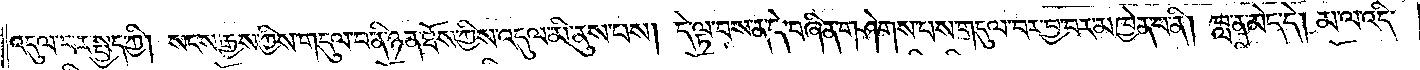འདུལ་བར་སྤྱད་ཀྱི། སངས་རྒྱས་ཀྱིས་གདུལ་བ་ནི་ཉན་ཐོས་ཀྱིས་འདུལ་མི་ནུས་པས། དེ་ལྟ་བས་ན་དེ་བཞིན་གཤེགས་པས་གདུལ་བར་བྱ་བར་མཁྱེན་པ་ནི། བླ་ན་མེད་དེ། མ་ལ་འདི་
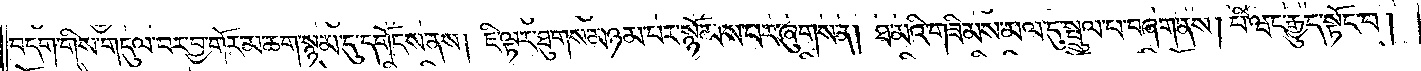བདག་གིས་གདུལ་བར་བྱ་གོར་མ་ཆག་སྙམ་དུ་དགོངས་ནས། ཇི་ལྟར་ཐུགས་མཉམ་པར་སྙོམས་པར་ཞུགས་ན། ཐ་མའི་གཟིམས་མལ་དུ་སྤྲུལ་པ་བཞག་ནས། པི་ཝང་རྒྱུད་སྟོང་པ།
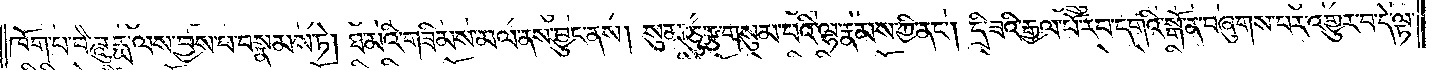ཁོག་པ་བཻ་ཌཱུརྻ་ལས་བྱས་པ་བསྣམས་ཏེ། ཐ་མའི་གཟིམས་མལ་ནས་བྱུང་ནས། སུམ་ཅུ་རྩ་གསུམ་པའི་ལྷ་རྣམས་ཀྱི་ནང༌། དྲི་ཟའི་རྒྱལ་པོ་རབ་དགའི་སྒོ་ན་བཞུགས་པར་འགྱུར་བ་དེ་ལྟ་
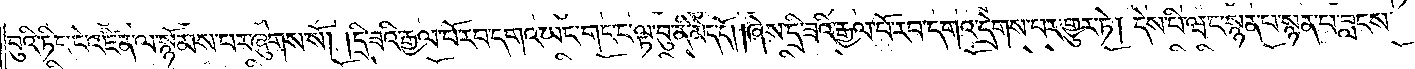བུའི་ཏིང་ངེ་འཛིན་ལ་སྙོམས་པར་ཞུགས་སོ། །དྲི་ཟའི་རྒྱལ་པོ་རབ་དགའ་ཡང་གང་ང་ལྟ་བུ་ནི་མེད་དོ། །ཞེས་དྲི་ཟའི་རྒྱལ་པོ་རབ་དགའ་དྲེགས་པར་གྱུར་ཏེ། དེས་པི་ཝང་སྙན་པ་སྙན་པ་བླངས་
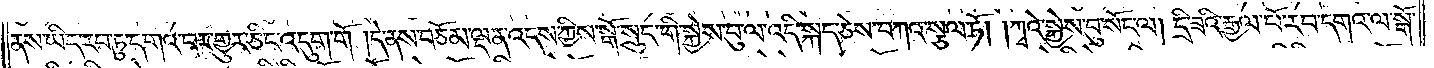ནས་ཡིད་རབ་ཏུ་དགའ་བར་གྱུར་ཅིང་འདུག་གོ །དེ་ནས་བཅོམ་ལྡན་འདས་ཀྱིས་སྒོ་སྲུང་གི་སྐྱེས་བུ་ལ་འདི་སྐད་ཅེས་བཀའ་སྩལ་ཏོ། །ཀྭའེ་སྐྱེས་བུ་སོང་ལ། དྲི་ཟའི་རྒྱལ་པོ་རབ་དགའ་ལ་སྒོ་
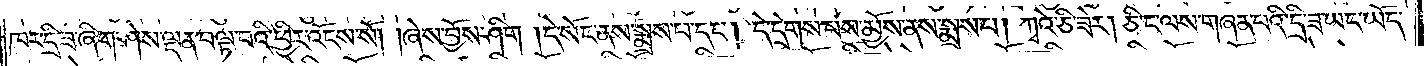ཁར་དྲི་ཟ་ཞིག་ཤེས་ལྡན་བལྟ་བའི་ཕྱིར་འོངས་སོ། །ཞེས་བྱོས་ཤིག །དེ་སོང་ནས་སྨྲས་པ་དང༌། དེ་དྲེགས་པས་མྱོས་ནས་སྨྲས་པ། ཀྭའེ་ཅི་ཟེར། ཅི་ང་ལས་གཞན་པའི་དྲི་ཟ་ཡང་ཡོད་
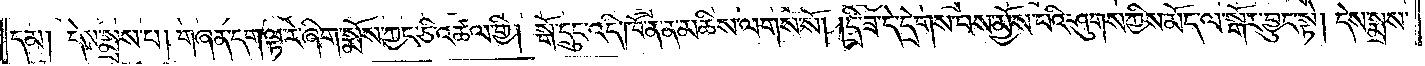དམ། དེས་སྨྲས་པ། གཞན་དག་ལྟ་རེ་ཞིག་སྨོས་ཀྱང་ཅི་འཚལ་གྱི། སྒོ་དྲུང་འདི་ཁོ་ན་ན་མཆིས་ལགས་སོ། །དྲི་ཟ་དེ་དྲེགས་པས་མྱོས་པའི་ཤུགས་ཀྱིས་མོད་ལ་སྒོར་བྱུང་སྟེ། དེས་སྨྲས་
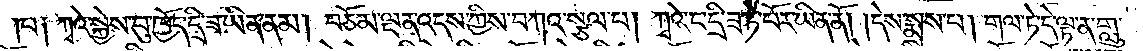པ༑ ཀྭའེ་སྐྱེས་བུ་ཁྱོད་དྲི་ཟ་ཡིན་ནམ། བཅོམ་ལྡན་འདས་ཀྱིས་བཀའ་སྩལ་པ། ཀྭའེ་ང་དྲི་ཟ་ཏེ་པོར་ཡིན་ནོ། །དེས་སྨྲས་པ། གལ་ཏེ་དེ་ལྟ་ན་གླུ་
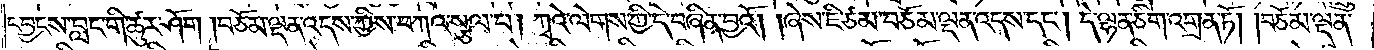དབྱངས་བླང་གི་ཚུར་ཤོག །བཅོམ་ལྡན་འདས་ཀྱིས་བཀའ་སྩལ་པ། ཀྭའེ་ལེགས་ཀྱི་དེ་བཞིན་བྱའོ། །ཞེས་ཇི་ཙམ་བཅོམ་ལྡན་འདས་དང༌། དེ་ལྷན་ཅིག་འགྲན་ཏོ། །བཅོམ་ལྡན་
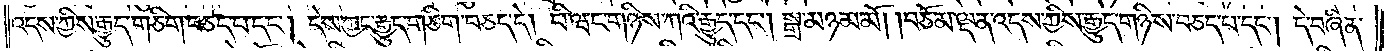འདས་ཀྱིས་རྒྱུད་གཅིག་བཅད་པ་དང༌། དེས་ཀྱང་རྒྱུད་གཅིག་བཅད་དེ། པི་ཝང་གཉིས་ཀའི་རྒྱུད་དང༌། སྒྲ་མཉམ་མོ། །བཅོམ་ལྡན་འདས་ཀྱིས་རྒྱུད་གཉིས་བཅད་པ་དང༌། དེ་བཞིན་
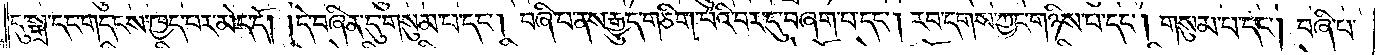དུ་སྒྲ་དང་གདངས་ཁྱད་པར་མེད་དོ། །དེ་བཞིན་དུ་གསུམ་པ་དང༌། བཞི་པ་ནས་རྒྱུད་གཅིག་པའི་བར་དུ་བཞག་པ་དང༌། རབ་དགས་ཀྱང་གཉིས་པ་དང༌། གསུམ་པ་དང༌། བཞི་པ་
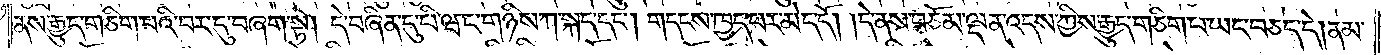ནས་རྒྱུད་གཅིག་པའི་བར་དུ་གཞག་སྟེ། དེ་བཞིན་དུ་པི་ཝང་གཉིས་ཀ་སྐད་དང༌། གདངས་ཁྱད་པར་མེད་དོ། །དེ་ནས་བཅོམ་ལྡན་འདས་ཀྱིས་རྒྱུད་གཅིག་པ་ཡང་བཅད་དེ། ནམ་
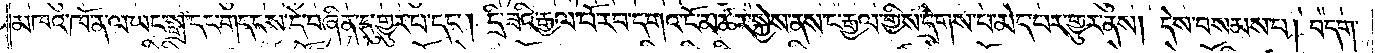མཁའ་ཁོ་ན་ལ་ཡང་སྒྲ་དང་གདངས་དེ་བཞིན་དུ་གྱུར་པ་དང༌། དྲི་ཟའི་རྒྱལ་པོ་རབ་དགའ་ངོ་མཚར་སྐྱེས་ནས་ང་རྒྱལ་གྱིས་དྲེགས་པ་མེད་པར་གྱུར་ནས། དེས་བསམས་པ། བདག་
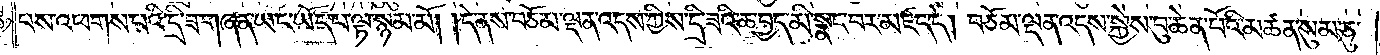པས་འཕགས་པའི་དྲི་ཟ་གཞན་ཡང་ཡོད་པ་ལྟ་སྙམ་མོ། །དེ་ནས་བཅོམ་ལྡན་འདས་ཀྱིས་དྲི་ཟའི་ཆ་བྱད་མི་སྣང་བར་མཛད་དེ། བཅོམ་ལྡན་འདས་སྐྱེས་བུ་ཆེན་པོའི་མཚན་སུམ་ཅུ་
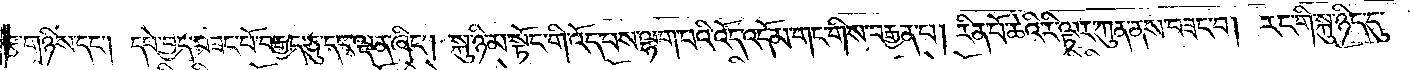རྩ་གཉིས་དང༌། དཔེ་བྱད་བཟང་པོ་བརྒྱད་ཅུ་དང་ལྡན་ཞིང༌། སྐུ་ཉི་མ་སྟོང་གི་འོད་པས་ལྷག་པའི་འོད་འདོམ་གང་གིས་བརྒྱན་པ། རིན་པོ་ཆེའི་རི་ལྟར་ཀུན་ནས་བཟང་བ། རང་གི་སྐུ་ཉིད་དུ་
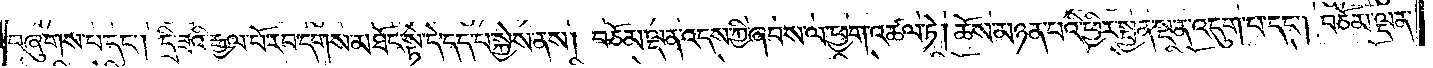བཞུགས་པ་དང༌། དྲི་ཟའི་རྒྱལ་པོ་རབ་དགས་མཐོང་སྟེ་དེ་དད་པ་སྐྱེས་ནས། བཅོམ་ལྡན་འདས་ཀྱི་ཞབས་ལ་ཕྱག་འཚལ་ཏེ། ཆོས་མཉན་པའི་ཕྱིར་སྤྱན་སྔ་ན་འདུག་པ་དང༌། བཅོམ་ལྡན་
